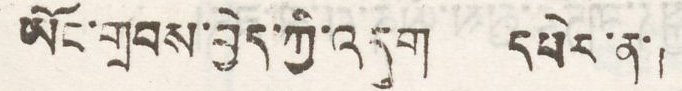ཡོང་གྲབས་བྱེད་ཀྱི་འདུག དཔེར་ན་།
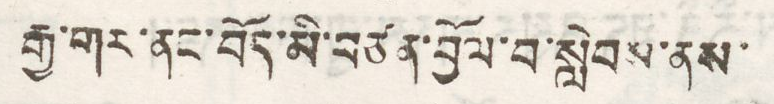རྒྱ་གར་ནང་བོད་མི་བཙན་བྱོལ་བ་སླེབས་ནས་
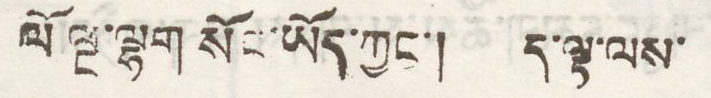ལོ་ལྔ་ལྷག སོང་ཡོད་ཀྱང་། ས་ལྟ་ལས་
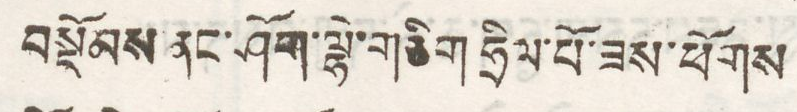བསྡོམས་ནང་ཤོག་ལྷེ་གཅིག ཧྲིལ་པོ་ཟས་ཕོགས
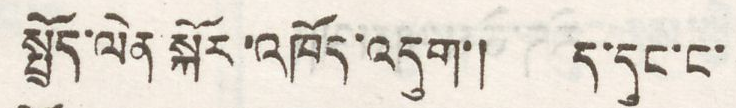སྤྲོད་ལེན་སྐོར་འཁོད་འདུག་། ད་དུང་ང་
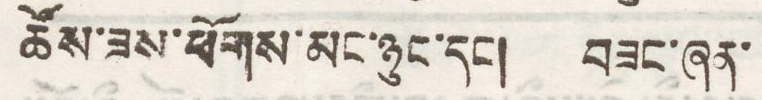ཚོས་ཟས་ཕོགས་མང་ཉུང་དང་། བཟང་ཞན་
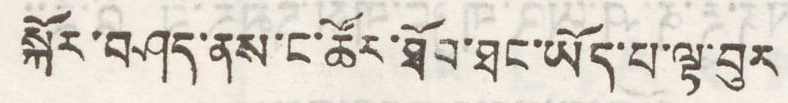སྐོར་བཤད་ནས་ང་ཚོར་ཐོབ་ཐང་ཡོད་པ་ལྟ་བུར
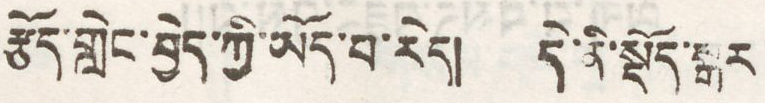རྩོད་གླེང་བྱེད་ཀྱི་ཡོད་པ་རེད། དེ་ནི་སྡོད་སྒར
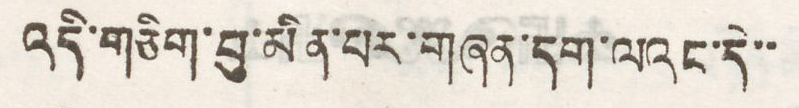འདི་གཅིག་བུ་མིན་པར་གཞན་དག་ལའང་དེ་་
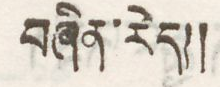བཞིན་རེད།།
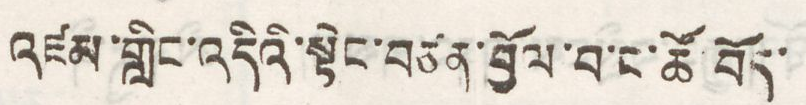འཛམ་གླིང་འདིའི་སྟེང་བཙན་བྱོལ་བ་ང་ཚོ་བོད་
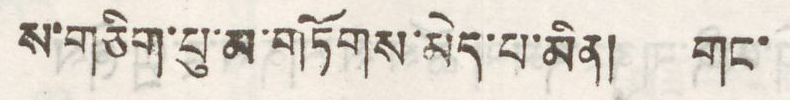ས་གཅིག་པུ་མ་གཏོགས་མེད་པ་མིན། གང་
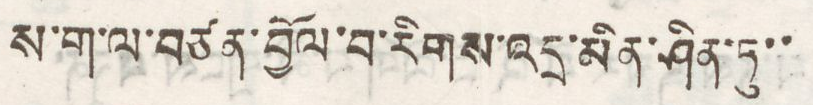ས་ག་ལ་བཙན་བྱོལ་བ་རིགས་འདྲ་མིན་ཤིན་ཏུ་་
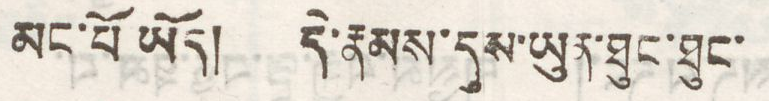མང་པོ ཡོད། དེ་རྣམས་དུས་ཡུན་ཐུང་ཐུང་
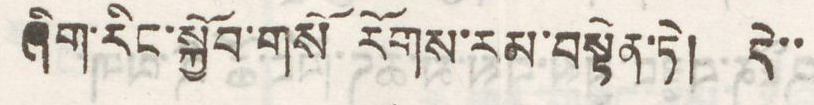ཞིག་རིང་སྐྱོབ་གསོ རོགས་རམ་བསྟེན་ཏེ། དེ་་
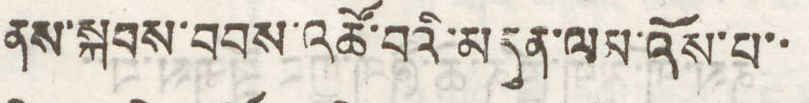ནས་སྐབས་བབས་འཚོ་བའི་མདུན་ལམ་འོས་པ་་
